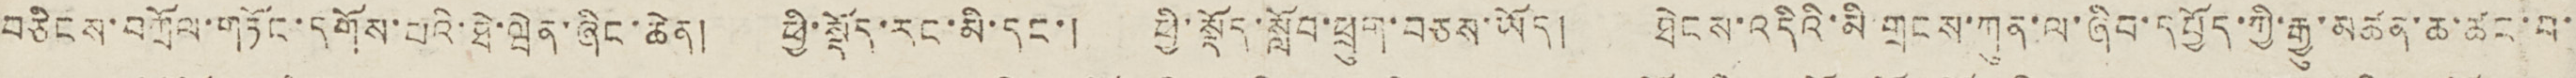བཅིངས་བགྲོལ་གཏོང་དགོས་པའི་ཐེ་ཝེན་ཞིང་ཆེན། ཕྱི་སྡོད་རང་མི་དང་། ཕྱི་སྡོད་སློབ་ཕྲུག་བཅས་ཡོད། ཐེངས་འདིའི་མི གྲངས་ཀུན་ལ་ཞིབ་དཔྱོད་ཀྱི་རྒྱུ་མཚན་ཆ་ཚང་བ་
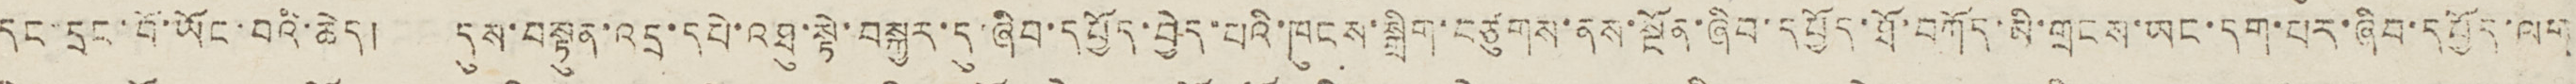དང་དྲང་བོ་ཡོང་བའི་ཆེད། དུས་བསྟུན་འདྲ་དཔེ་འཐུ་སྟེ་བསྐུར་དུ་ཞིབ་དཔྱོད་བྱེད་པའི་ཁུངས་སྒྲིག་བཙུགས་ནས་སྔོན་ཞིབ་དཔྱོད་ཐོ་བཀོད་མི་གྲངས་ཡང་དག་པར་ཞིབ་དཔྱོད་ལག
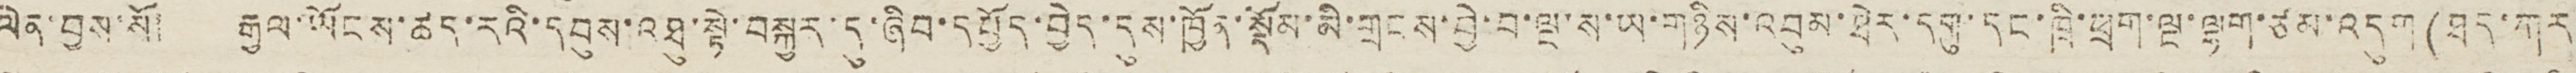ལེན་བྱས་སོ། རྒྱལ་ཡོངས་ཚད་རའི་དབུས་འཐུ་སྟེ་བསྐྱར་དུ་ཞིབ་དཔྱོད་བྱེད་དུས་ཁྱོན་སྡོམ་མི་གྲངས་བྱེ་བ་ལྔ་ས་ཡ་གཉིས་འབུམ་ཐེར་དགུ་དང་ཁྲི་ཕྲག་ལྔ་ལྷག་ཙམ་འདུག(ཐད་ཀར
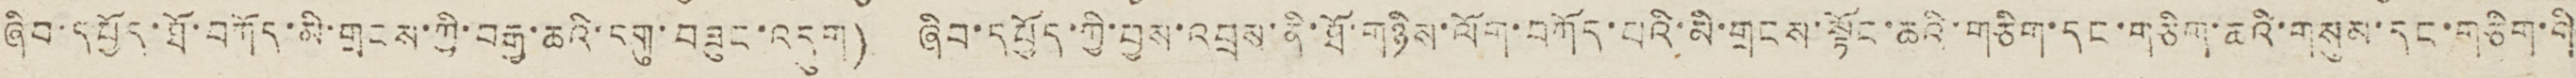ཞིབ་དཔྱོད་ཐོ་བཀོད་མི་གྲངས་ཀྱི་བརྒྱ་ཆའི་དགུ་བཟུང་འདུག) ཞིབ་དཔྱོད་ཀྱི་བྱས་འབྲས་ནི་ཐོ་གཉིས་ལོག་བཀོད་པའི་མི་གྲངས་སྟོང་ཆའི་གཅིག་དང་གཅིག་ཆའི་གསུམ་དང་གཅིག་གི
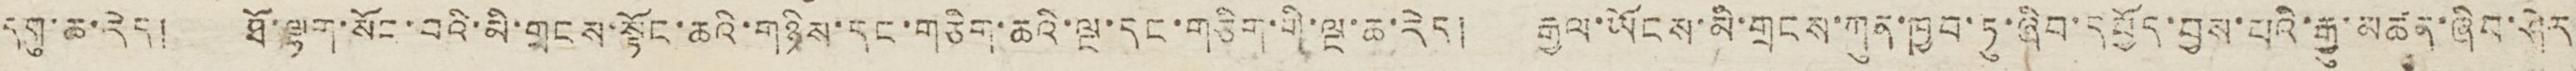དགུ་ཆ་རེད། ཐོ་ལྷག་སོང་བའི་མི་གྲངས་སྟོང་ཆའི་གཉིས་དང་གཅིག་ཆའི་ལྔ་དང་གཅིག་གི་ལྔ་ཆ་རེད། རྒྱལ་ཡོངས་མི་གྲངས་ཀུན་ཁྱབ་ཏུ་ཞིབ་དཔྱོད་བྱས་པའི་རྒྱུ་མཚན་ཞིབ་ཤེར
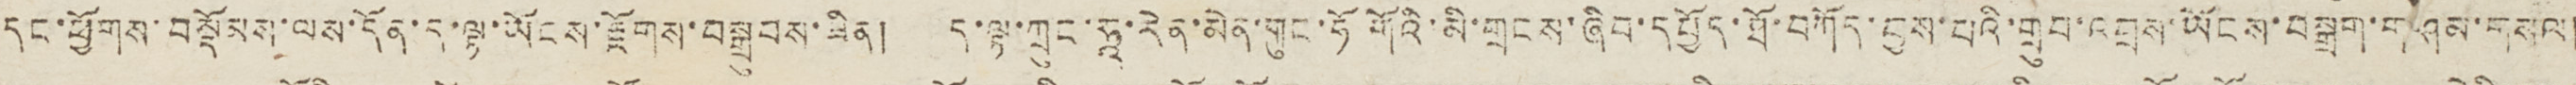དང་ཕྱོགས་བསྡོམས་ལས་དོན་ད་ལྟ་ཡོངས་རྫོགས་བསྒྲུབས་ཟིན། ད་ལྟ་ཀྲུང་ཧཱ་རེན་མེན་གུང་ཧོ གོའི་མི་གྲངས་ཞིབ་དཔྱོད་ཐོ་བཀོད་བྱས་པའི་གྲུབ་འབྲས་ཡོངས་བསྒྲག་གཤམ་གསལ།
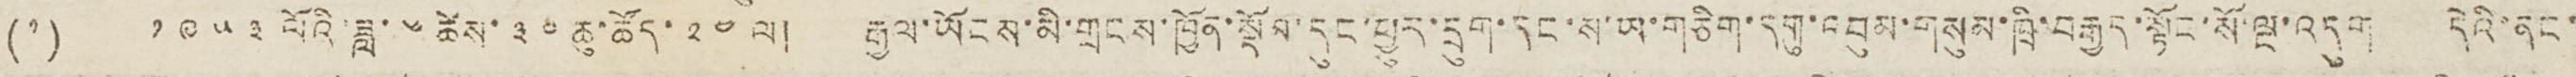(༡) ༡༩༥༣ ལོའི་ཟླ་ ༦ ཚེས་ ༣༠ ཆུ་ཚོད་ ༢༤ ལ། རྒྱལ་ཡོངས་མི་གྲངས་ཁྱོན་སྡོབ་དུང་ཕྱུར་དྲུག་དང་ས་ཡ་གཅིག་དགུ་འབུམ་གསུམ་ཁྲི་བརྒྱད་སྟོང་སོ་ལྔ་འདུག དེའི་ནང་
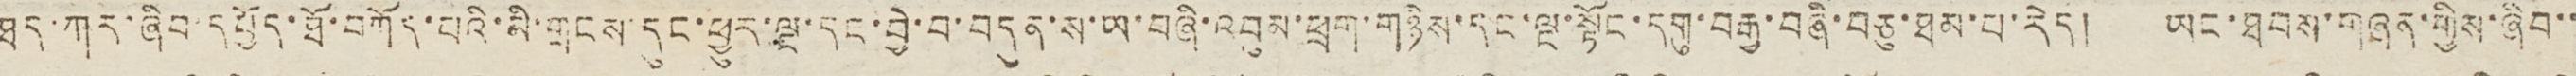ཐད་ཀར་ཞིབ་དཔྱོད་ཐོ་བཀོད་པའི་མི་གྲངས་དུང་ཕྱུར་ལྔ་དང་བྱེ་བ་བདུན་ས་ཡ་བཞི་འབུམ་ཕྲག་གཉིས་དང་ལྔ་སྟོང་དགུ་བརྒྱ་བཞི་བཅུ་ཐམ་པ་རེད། ཡང་ཐབས་གཞན་གྱིས་ཞིབ་་
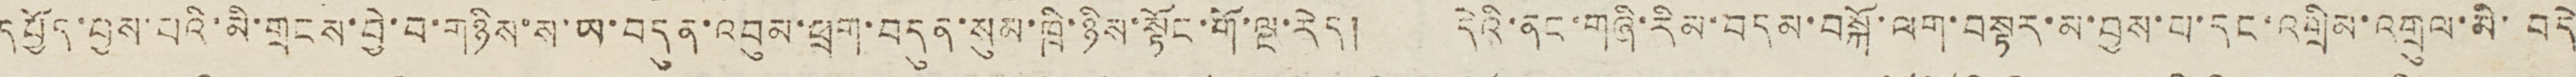དཔྱོད་བྱས་པའི་མི་གྲངས་བྱེ་བ་གཉིས་ས་ཡ་བདུན་འབུམ་ཕྲག་བདུན་སུམ་ཁྲི་ཉིས་སྟོང་གོ་ལྔ་རེད། དེའི་ནང་གཞི་རིམ་བདམ་བསྐོ་ལག་བསྟར་མ་བྱས་པ་དང་འགྲིམ་འགུལ་མི་བདེ
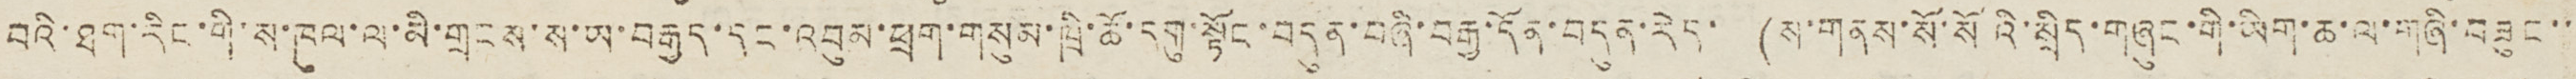བའི་ཐག་རིང་གི་ས་ཁུལ་ལ་མི་གྲངས་ས་ཡ་བརྒྱད་དང་འབུམ་ཕྲག་གསུམ་ཁྲི་ཆོ་དགུ་སྟོང་བདུན་བཞི་བརྒྱ་དོན་བདུན་རེད་ (ས་གནས་སོ་སོའི་སྲིད་གཞུང་གི་ཡིག་ཆ་ལ་གཞི་བཟུང་་
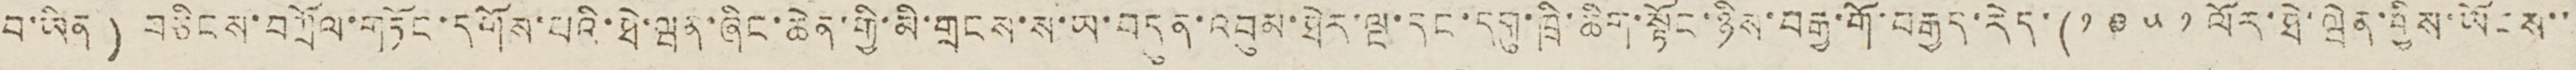བ་ཡིན ) བཅིངས་བཀྲོལ་གཏོང་དགོས་པའི་ཐེ་ཝན་ཞིང་ཆེན་གྱི་མི་གྲངས་ས་ཡ་བདུན་འབུམ་ཐེར་ལྔ་དང་དགུ་ཁྲི་ཆིག་སྟོང་ཉིས་བརྒྱ་གོ་བརྒྱད་རེད་(༡༩༥༡ལོར་ཐེ་ཝེན་གྱིས་ཡོངས་་
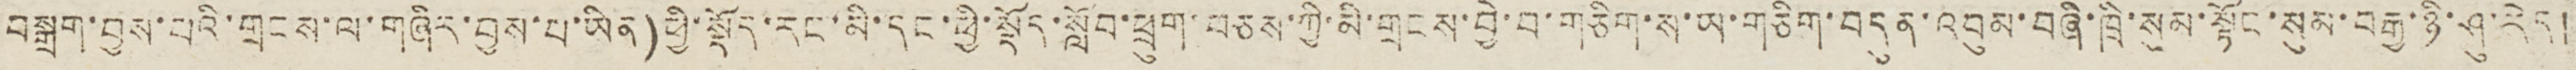བསྒྲག་བྱས་པའི་གྲངས་ལ་གཞིར་བྱས་པ་ཡིན)ཕྱི་སྡོད་རང་མི་དང་ཕྱི་སྡོད་སློབ་ཕྲུག་བཅས་ཀྱི་མི་གྲངས་བྱེ་བ་གཅིག་ས་ཡ་གཅིག་བདུན་འབུམ་བཞི་ཁྲི་སུམ་སྟོང་སུམ་བརྒྱ་ཉི་ཤུ་རེད།
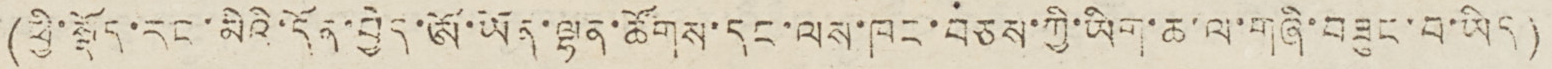(ཕྱི་སྡོད་རང་མིའི་དོན་བྱེད་ཨོ་ཡོན་ལྷན་ཚོགས་དང་ལས་ཁང་བཅས་ཀྱི་ཡིག་ཆ་ལ་གཞི་བཟུང་བ་ཡིད)
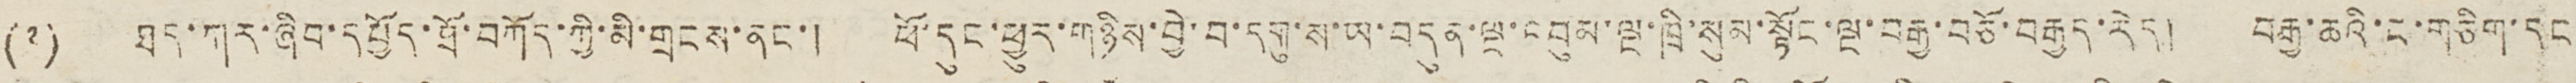(༢) ཐད་ཀར་ཞིབ་དཔྱོད་ཐོ་བཀོད་ཀྱི་མི་གྲངས་ནང་། ཕོ་དུང་ཕྱུར་གཉིས་བྱེ་བ་དགུ་ས་ཡ་བདུན་ལྔ་འབུམ་ལྔ་ཁྲི་སུམ་སྟོང་ལྔ་བརྒྱ་བཅོ་བརྒྱད་རེད། བརྒྱ་ཆའི་ང་གཅིག་དང
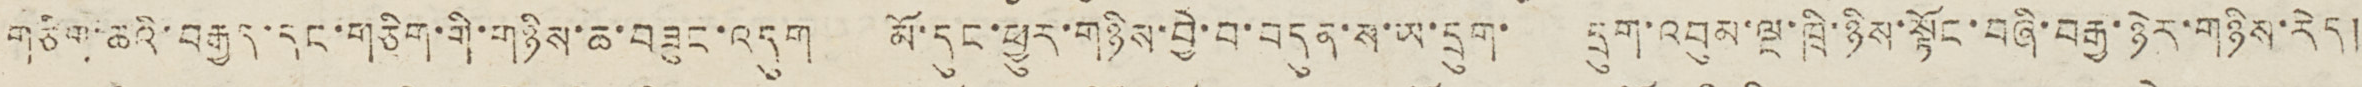གཅིག་ཆའི་བརྒྱད་དང་གཅིག་གི་གཉིས་ཆ་བཟུང་འདུག མོ་དུང་ཕྱུར་གཉིས་བྱེ་བ་བདུན་ས་ཡ་དྲུག་ དྲུག་འབུམ་ལྔ་ཁྲི་ཉིས་སྟོང་བཞི་བརྒྱ་ཉེར་གཉིས་རེད།
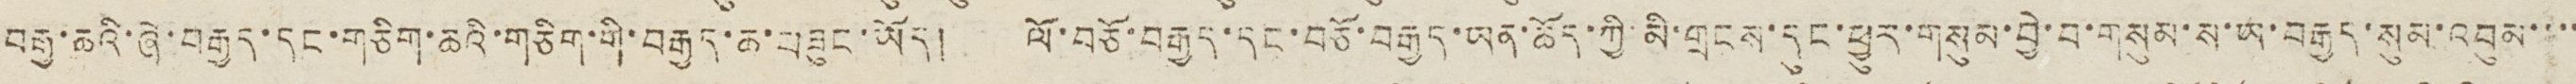བརྒྱ་ཆའི་ཞེ་བརྒྱད་དང་གཅིག་ཆའི་གཅིག་གི་བརྒྱད་ཆ་བཟུང་ཡོད། ལོ་བཅོ་བརྒྱད་དང་བཅོ་བརྒྱད་ཡན་ཆོད་ཀྱི་མི་གྲངས་དུང་ཕྱུར་གསུམ་བྱེ་བ་གསུམ་ས་ཡ་བརྒྱད་སུམ་འབུམ་་་་
